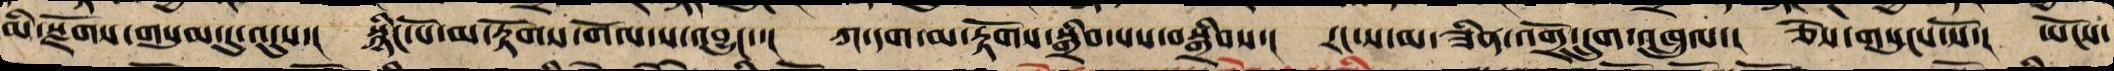མི་རྫོགས་གསུམ་དུ་འདུས་། སྙིང་པོ་མ་རྟོགས་གོལ་ས་འབྱུང་་། ཀ་དག་མ་རྟོགས་སྒྲིབ་པས་བསྒྲིབས་། རང་ས་མ་ཟིན་འགྲོ་དྲུག་འཁྲུལ། ཅེས་གསུངས་སོ་། ཡོངས་
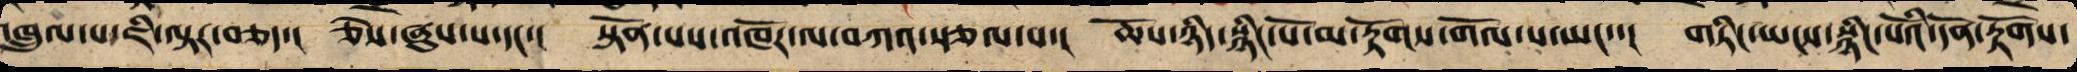འཁྲུལ་པ་ཇི་ལྟར་བཅད་། ཅེས་ཞུས་པ་དང་། སྟོན་པས་འཁོར་ལ་བཀའ་སྩལ་པ་། ཆོས་ཉིད་སྙིང་པོ་མ་རྟོགས་གོལ་ས་ཡང་་། གཏིང་ཡངས་སྙིང་པོའི་དོན་རྟོགས་
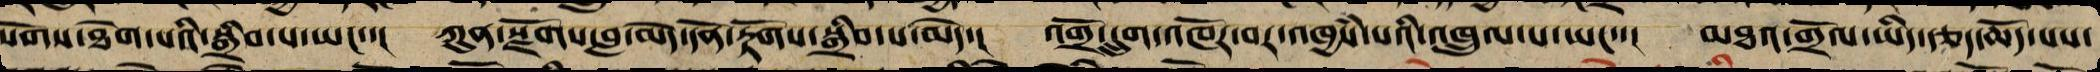སོགས་ཐེག་པའི་སྒྲིབ་པ་ཡང་་། ཀུན་སྫོགས་བླ་མེད་དོན་རྟོགས་སྒྲིབ་པ་མེད་། འགྲོ་དྲུག་འཁོར་བར་འཁྱཾས་པའི་འཁྲུལ་པ་ཡང་་། མཐའ་གྲོལ་ཡིད་རྩད་ཆོད་པས་
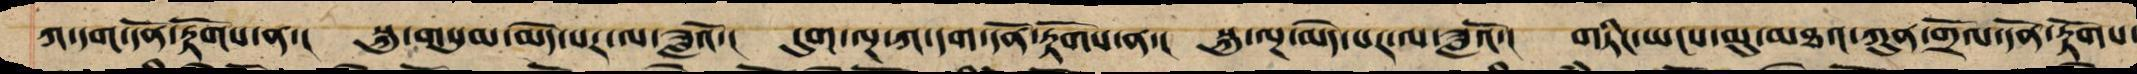ཀ་དག་དོན་རྟོགས་ན་། སྐུ་གསུམ་མེད་པར་ལ་ཟླའོ་། དུག་ལྔ་ཀ་དག་དོན་རྟོགས་ན་། སྐུ་ལྔ་མེད་པར་ལ་ཟླའོ་། གཏིང་ཡངས་མུ་མཐའ་ཀུན་གྲོལ་དོན་རྟོགས་
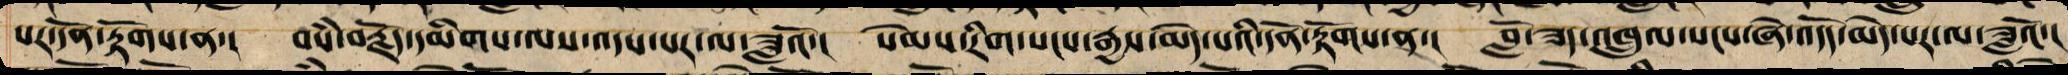པའི་དོན་རྟོགས་ན་། བསཾ་བརྗོད་དམིགས་ལས་འདས་པར་ལ་ཟླའོ་། སེམས་རིག་སངས་རྒྱས་མེད་པའི་དོན་རྟོགས་ན་། བློ་ཟད་འཁྲུལ་སངས་ཞེ་འདོད་མེད་པར་ལ་ཟླའོ་།
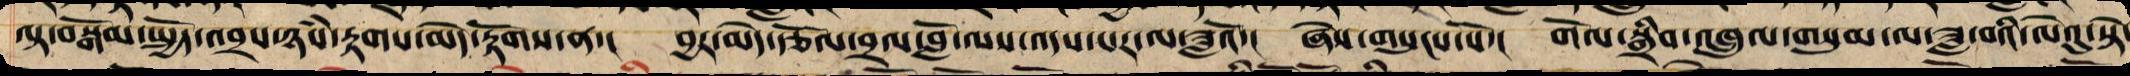ལྟ་སྒོམ་སྤྱོད་འབྲས་ཉཾས་རྟགས་མེད་རྟོགས་ན་། བྱར་མེད་རྩོལ་བྲལ་བློ་ལས་འདས་པར་ལ་ཟླའོ་། ཞེས་གསུངས་སོ་། གོལ་སྒྲིབ་འཁྲུལ་གསུམ་ལ་ཟླ་བའི་ལེའུ་སྟེ་
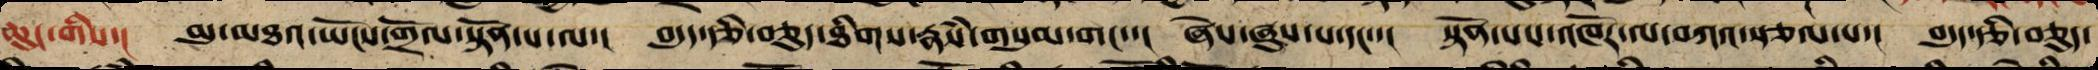ཆུང་གིས་། མུ་མཐའ་ཡོངས་གྲོལ་སྟོན་པ་ལ་། བདུད་རྩི་བཅུད་ཐིགས་རྣཾས་གསུམ་གང་་། ཞེས་ཞུས་པ་དང་་། སྟོན་པས་འཁོར་ལ་བཀའ་སྩལ་པ་། བདུད་རྩི་བཅུད་
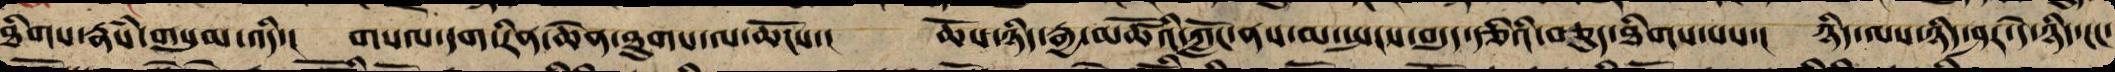ཐིགས་རྣཾས་གསུམ་འདི་། གསལ་དག་རིན་ཆེན་ཐུགས་ལ་ཆོངས་། ཆོས་ཉིད་རྒྱ་མཚོའི་ཀློང་ནས་མ་སྤངས་བདུད་རྩིའི་བཅུད་ཐིགས་པས་། ཉིད་ལས་ཉིད་ཤར་དེ་ཉིད་ངང་
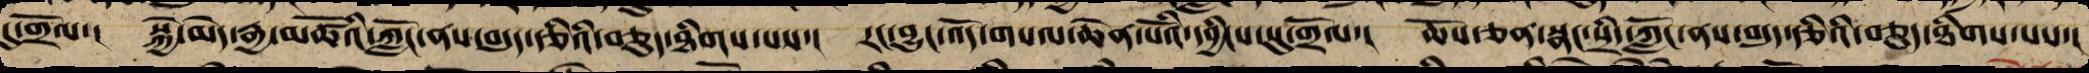དུ་གྲོལ་། སྐྱེ་མེད་རྒྱ་མཚོའི་ཀློང་ནས་བདུད་རྩིའི་བཅུད་ཐིགས་པས་། རང་བྱུང་འོད་གསལ་ཆེན་པོའི་དབྱིངས་སུ་གྲོལ་། ཆོས་ཅན་སྣང་སྲིད་ཀློང་ནས་བདུད་རྩིའི་བཅུད་ཐིགས་པས་།
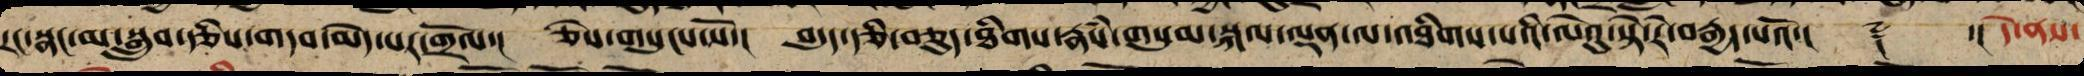རང་སྣང་མ་སྒྲུབ་རྩིས་གདབ་མེད་པར་གྲོལ་། ཅེས་གསུངས་སོ་། བདུད་རྩི་བཅུད་ཐིགས་རྣཾས་གསུམ་སྐལ་ལྡན་ལ་འཐིགས་པའི་ལེའུ་སྟེ་རེ་བརྒྱད་པའོ་།། ༈ ་། དེ་ནས་
